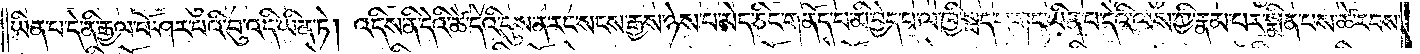ཡིན་པ་དེ་ནི་རྒྱལ་པོ་ཤར་པའི་བུ་འདི་ཡིན་ཏེ། འདིས་ནི་དེའི་ཚེ་དེའི་དུས་ན་རང་སངས་རྒྱས་ཉེས་པ་མེད་ཅིང་གནོད་པ་མི་བྱེད་པ་ལ་ཁྱི་སྦད་པ་གང་ཡིན་པ་དེའི་ལས་ཀྱི་རྣམ་པར་སྨིན་པས་ཚེ་རབས་
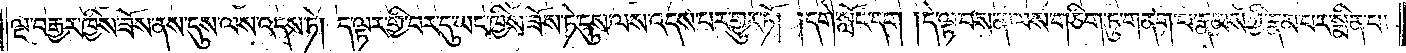ལྔ་བརྒྱར་ཁྱིས་ཟོས་ནས་དུས་ལས་འདས་ཏེ། ད་ལྟར་གྱི་བར་དུ་ཡང་ཁྱིས་ཟོས་ཏེ་དུས་ལས་འདས་པར་གྱུར་ཏོ། །དགེ་སློང་དག །དེ་ལྟ་བས་ན་ལས་གཅིག་ཏུ་གནག་པ་རྣམས་ཀྱི་རྣམ་པར་སྨིན་པ་
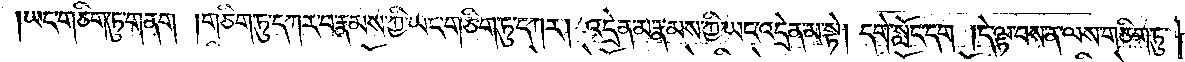ཡང་གཅིག་ཏུ་གནག །གཅིག་ཏུ་དཀར་བ་རྣམས་ཀྱི་ཡང་གཅིག་ཏུ་དཀར། འདྲེན་མ་རྣམས་ཀྱིས་ཡན་འདྲེན་མ་སྟེ། དགེ་སློང་དག །དེ་ལྟ་བས་ན་ལས་གཅིག་ཏུ་
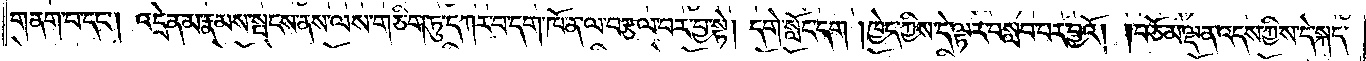གནག་པ་དང༌། འདྲེན་མ་རྣམས་སྤངས་ནས་ལས་གཅིག་ཏུ་དཀར་བ་དག་ཁོ་ན་ལ་བརྩལ་བར་བྱ་སྟེ། དགེ་སློང་དག། ཁྱེད་ཀྱིས་དེ་ལྟར་བསླབ་པར་བྱའོ། །བཅོམ་ལྡན་འདས་ཀྱིས་དེ་སྐད་
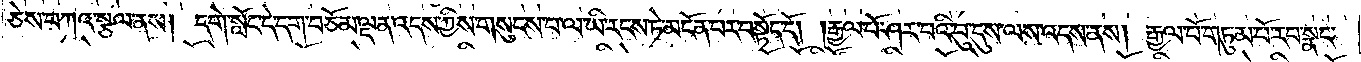ཅེས་བཀའ་སྩལ་ནས། དགེ་སློང་དེ་དག་བཅོམ་ལྡན་འདས་ཀྱིས་གསུངས་པ་ལ་ཡི་རངས་ཏེ་མངོན་པར་བསྟོད་དོ། །རྒྱལ་པོ་ཤར་བའི་བུ་དུས་ལས་འདས་ནས། རྒྱལ་པོ་གཏུམ་པོ་རབ་སྣང་
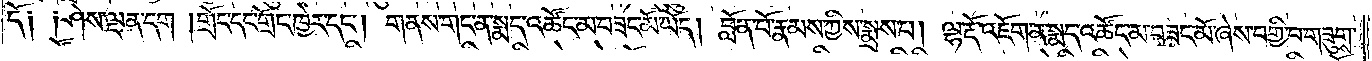དོ༑ ༑ཤེས་ལྡན་དག །གྲོང་དང་གྲོང་ཁྱེར་དང༌། གནས་གང་ན་སྨད་འཚོང་མ་བཟང་མོ་ཡོད། བློན་པོ་རྣམས་ཀྱིས་སྨྲས་པ། ལྷ་རྡོ་འཇོག་ན་སྨད་འཚོང་མ་བཟང་མོ་ཞེས་བགྱི་བ་གཟུགས་
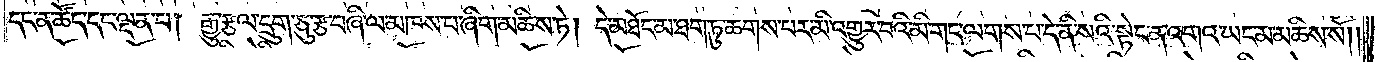དང་ན་ཚོད་དང་ལྡན་པ། རྒྱུ་རྩལ་དྲུག་ཅུ་རྩ་བཞི་ལ་མཁས་པ་ཞིག་མཆིས་ཏེ། དེ་མཐོང་མ་ཐག་ཏུ་ཆགས་པར་མི་འགྱུར་བའི་མི་གང་ལགས་པ་དེ་ནི་སའི་སྟེང་ན་འགའ་ཡང་མ་མཆིས་སོ། །
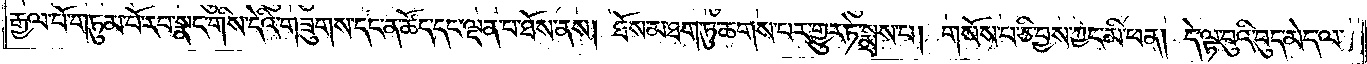རྒྱལ་པོ་གཏུམ་པོ་རབ་སྣང་གིས་དེའི་གཟུགས་དང་ན་ཚོད་དང་ལྡན་པ་ཐོས་ནས། ཐོས་མ་ཐག་ཏུ་ཆགས་པར་གྱུར་ཏེ་སྨྲས་པ། གསོས་པ་ཅི་བྱས་ཀྱང་མི་ཕན། དེ་ལྟ་བུའི་བུད་མེད་ལ་
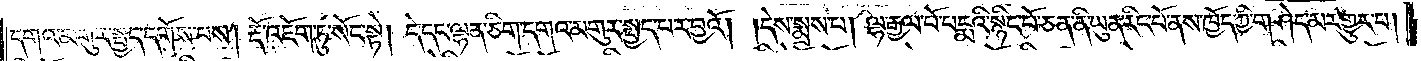དགའ་མགུར་སྤྱད་དགོས་པས། རྡོ་འཇོག་ཏུ་སོང་སྟེ། དེ་དང་ལྷན་ཅིག་དགའ་མགུར་སྤྱད་པར་བྱའོ། །དེས་སྨྲས་པ། ལྷ་རྒྱལ་པོ་པདྨའི་སྙིང་པོ་ཅན་ནི་ཡུན་རིང་པོ་ནས་ཁྱོད་ཀྱི་གཤེད་མར་གྱུར་པ།
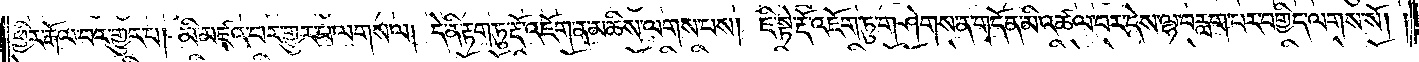ཕྱིར་རྒོལ་བར་གྱུར་པ། མི་མཛའ་བར་གྱུར་པ་ལགས་ལ། དེ་ནི་རྟག་ཏུ་རྡོ་འཇོག་ན་མཆིས་ལགས་པས། ཇི་སྟེ་རྡོ་འཇོག་ཏུ་གཤེགས་ན་གདོན་མི་འཚལ་བར་དེས་ལྷ་བརླག་པར་བགྱིད་ལགས་སོ། །
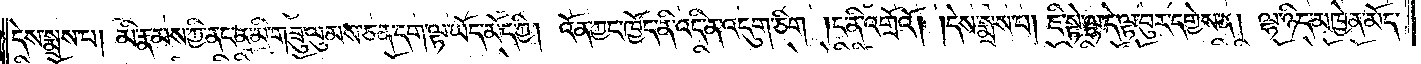དེས་སྨྲས་པ། མི་རྣམས་ཀྱི་ནང་ན་མི་གཟུ་ལུམས་ཅན་དག་ལྟ་ཡོད་མོད་ཀྱི། འོན་ཀྱང་ཁྱོད་ནི་འདི་ན་འདུག་ཅིག །ང་ནི་འགྲོའོ། །དེས་སྨྲས་པ། ཇི་སྟེ་ལྷ་དེ་ལྟ་བུར་དགྱེས་ན། ལྷ་ཉིད་མཁྱེན་མོད་
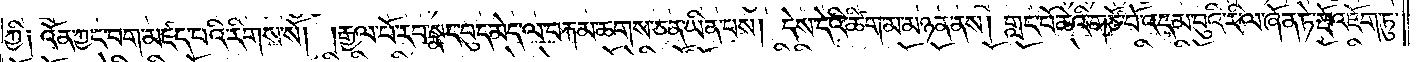ཀྱི༑ འོན་ཀྱང་བག་མཛད་པའི་རིགས་སོ། །རྒྱལ་པོ་རབ་སྣང་བུད་མེད་ལ་བརྐམ་ཆགས་ཅན་ཡིན་པས། དེས་དེའི་ཚིག་མ་མཉན་ནས། གླང་པོ་ཆེའི་གཙོ་བོ་འདམ་བུའི་རི་ལ་ཞོན་ཏེ་རྡོ་འཇོག་ཏུ་
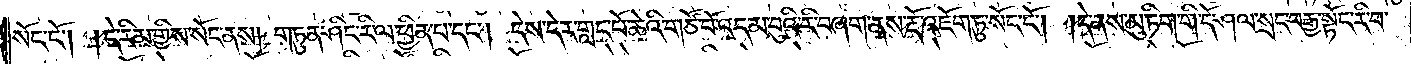སོང་ངོ༌། །དེ་རིམ་གྱིས་སོང་ནས། གཏུན་ཤིང་རི་ལ་ཕྱིན་པ་དང༌། དེས་དེར་གླང་པོ་ཆེའི་གཙོ་བོ་འདམ་བུ་རི་བཞག་ནས་རྡོ་འཇོག་ཏུ་སོང་ངོ༌། །དེ་ནས་མུ་ཏིག་གི་དོ་ཤལ་སྲང་བརྒྱ་སྟོང་རི་བ་
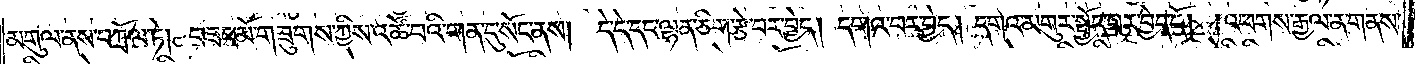མགུལ་ནས་བཀྲོལ་ཏེ། བཟང་མོ་གཟུགས་ཀྱིས་འཚོ་བའི་གན་དུ་སོང་ནས། དེ་དེ་དང་ལྷན་ཅིག་རྩེ་བར་བྱེད། དགའ་བར་བྱེད། དགའ་མགུར་སྤྱོད་པར་བྱེད་དོ། །འཕགས་རྒྱལ་ན་གནས་
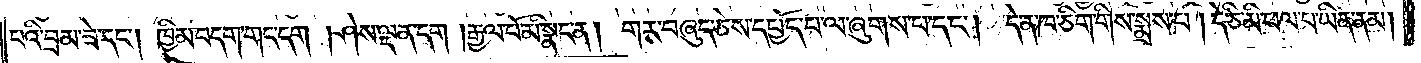པའི་བྲམ་ཟེ་དང༌། ཁྱིམ་བདག་གང་དག། ཤེས་ལྡན་དག །རྒྱལ་པོ་མི་སྣང་ན། གར་བཞུད་ཅེས་དཔྱོད་པ་ལ་ཞུགས་པ་དང༌། དེ་ན་ཁ་ཅིག་གིས་སྨྲས་པ། དེ་ཅི་མི་ཕལ་བ་ཡིན་ནམ།
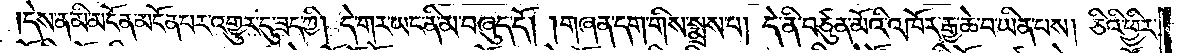དེས་ན་མི་མངོན་མངོན་པར་འགྱུར་དུ་ཟད་ཀྱི། དེ་གར་ཡང་ནི་མ་བཞུད་དོ། །གཞན་དག་གིས་སྨྲས་པ། དེ་ནི་བཙུན་མོའི་འཁོར་རྒྱ་ཆེ་བ་ཡིན་པས། ཅིའི་ཕྱིར་
